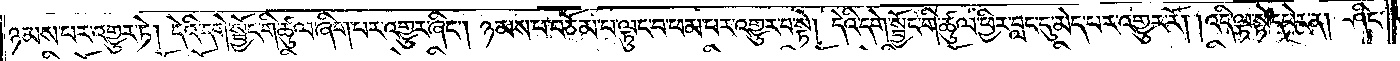ཉམས་པར་འགྱུར་ཏེ། དེའི་དགེ་སྦྱོང་གི་ཚུལ་ཞིག་པར་འགྱུར་ཞིང༌། ཉམས་པ་བཅོམ་པ་ལྟུང་བ་ཕམ་པར་འགྱུར་བ་སྟེ། དེའི་དགེ་སྦྱོང་གི་ཚུལ་ཕྱིར་བླང་དུ་མེད་པར་འགྱུར་རོ། །འདི་ལྟ་སྟེ་དཔེར་ན། ཤིང་
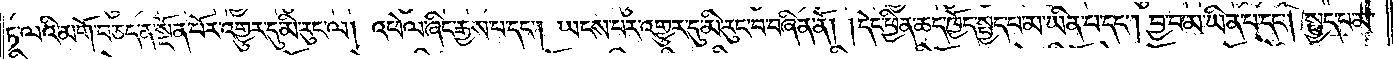ཏ་ལའི་མགོ་བཅད་ན་སྔོན་པོར་འགྱུར་དུ་མི་རུང་ལ། འཕེལ་ཞིང་རྒྱས་པ་དང༌། ཡངས་པར་འགྱུར་དུ་མི་རུང་བ་བཞིན་ནོ། །དེང་ཕྱིན་ཆད་ཁྱོད་སྤྱད་པ་མ་ཡིན་པ་དང༌། བྱ་བ་མ་ཡིན་པ་དང༌། སྤྱད་པ་མ་
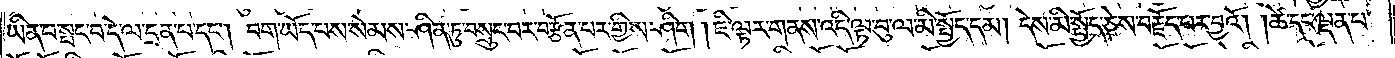ཡིན་པ་སྤང་བ་དེ་ལ་དྲན་པ་དང༌། བག་ཡོད་པས་སེམས་ཤིན་ཏུ་བསྲུང་བར་བརྩོན་པར་གྱིས་ཤིག །ཇི་ལྟར་གནས་འདི་ལྟ་བུ་ལ་མི་སྤྱོད་དམ། དེས་མི་སྤྱོད་ཅེས་བརྗོད་པར་བྱའོ། །ཚེ་དང་ལྡན་པ་
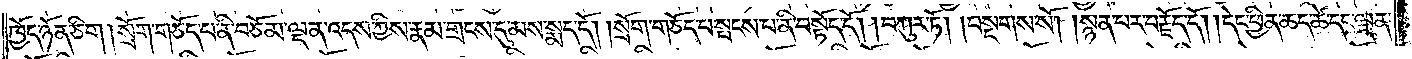ཁྱོད་ཉོན་ཅིག །སྲོག་གཅོད་པ་ནི་བཅོམ་ལྡན་འདས་ཀྱིས་རྣམ་གྲངས་དུ་མས་སྨད་དོ། །སྲོག་གཅོད་པ་སྤངས་པ་ནི་བསྟོད་དོ། །བཀུར་ཏོ། །བསྔགས་སོ། །སྙན་པར་བརྗོད་དོ། །དེང་ཕྱིན་ཆད་ཚེ་དང་ལྡན་
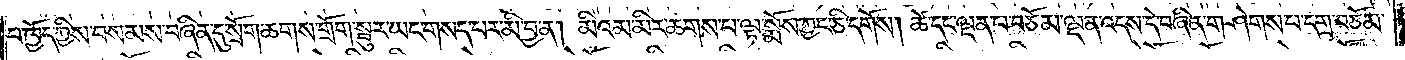པ་ཁྱོད་ཀྱིས་བསམས་བཞིན་དུ་སྲོག་ཆགས་གྲོག་སྦུར་ཡང་གསད་པར་མི་བྱ་ན། མིའམ་མིར་ཆགས་པ་ལྟ་སྨོས་ཀྱང་ཅི་དགོས། ཚེ་དང་ལྡན་པ་བཅོམ་ལྡན་འདས་དེ་བཞིན་གཤེགས་པ་དགྲ་བཅོམ་
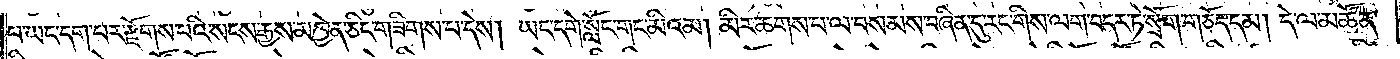པ་ཡང་དག་པར་རྫོགས་པའི་སངས་རྒྱས་མཁྱེན་ཅིང་གཟིགས་པ་དེས། ཡང་དགེ་སློང་གང་མིའམ། མིར་ཆགས་པ་ལ་བསམས་བཞིན་དུ་རང་གིས་ལག་བདར་ཏེ་སྲོག་གཅོད་དམ། དེ་ལ་མཚོན་
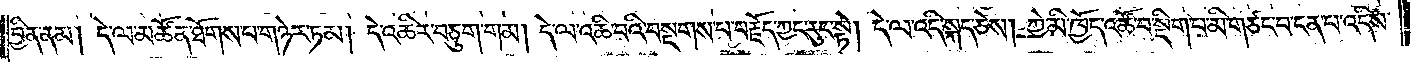བྱིན་ནམ། དེ་ལ་མཚོན་ཐོགས་པ་གཉེར་ཏམ། དེ་འཆིར་བཅུག་གམ། དེ་ལ་འཆི་བའི་བསྔགས་པ་བརྗོད་ཀྱང་རུང་སྟེ། དེ་ལ་འདི་སྐད་ཅེས། ཀྱེ་མི་ཁྱོད་འཚོ་བ་སྡིག་པ་མི་གཙང་པ་ངན་པ་འདིས
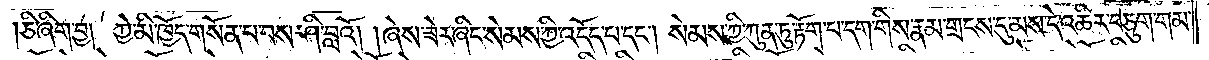ཅི་ཞིག་བྱ། ཀྱེ་མི་ཁྱོད་གསོན་པ་བས་ཤི་བླའོ། །ཞེས་ཟེར་ཞིང་སེམས་ཀྱི་འདོད་པ་དང༌། སེམས་ཀྱི་ཀུན་ཏུ་རྟོག་པ་དག་གིས་རྣམ་གྲངས་དུ་མས་དེ་འཆིར་བཅུག་གམ་
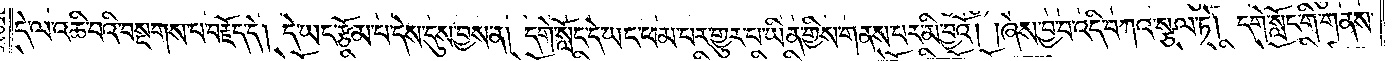དེ་ལ་འཆི་བའི་བསྔགས་པ་བརྗོད་དེ། དེ་ཡང་རྩོམ་པ་དེས་དུས་བྱས་ན། དགེ་སློང་དེ་ཡང་ཕམ་པར་གྱུར་པ་ཡིན་གྱིས་གནས་པར་མི་བྱའོ། །ཞེས་བྱ་བ་འདི་བཀའ་སྩལ་ཏེ། དགེ་སློང་གི་གནས་
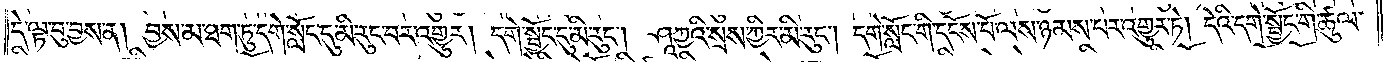དེ་ལྟ་བུ་བྱས་ན། བྱས་མ་ཐག་ཏུ་དགེ་སློང་དུ་མི་རུང་བར་འགྱུར། དགེ་སྦྱོང་དུ་མི་རུང༌། ཤཱཀྱའི་སྲས་ཀྱིར་མི་རུང༌། དགེ་སློང་གི་དངོས་པོ་ལས་ཉམས་པར་འགྱུར་ཏེ། དེའི་དགེ་སྦྱོང་གི་ཚུལ་
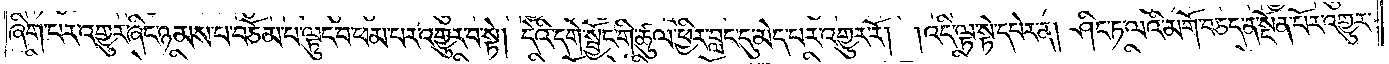ཞིག་པར་འགྱུར་ཞིང་ཉམས་པ་བཅོམ་པ་ལྟུང་བ་ཕམ་པར་འགྱུར་བ་སྟེ། དེའི་དགེ་སྦྱོང་གི་ཚུལ་ཕྱིར་བླང་དུ་མེད་པར་འགྱུར་རོ། །འདི་ལྟ་སྟེ་དཔེར་ན། ཤིང་ཏ་ལའི་མགོ་བཅད་ན་སྔོན་པོར་འགྱུར་
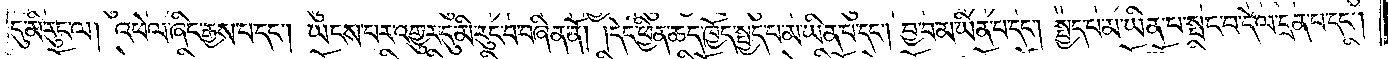དུ་མི་རུང་ལ། འཕེལ་ཞིང་རྒྱས་པ་དང༌། ཡངས་པར་འགྱུར་དུ་མི་རུང་བ་བཞིན་ནོ། །དེང་ཕྱིན་ཆད་ཁྱོད་སྤྱད་པ་མ་ཡིན་པ་དང༌། བྱ་བ་མ་ཡིན་པ་དང༌། སྤྱད་པ་མ་ཡིན་པ་སྤང་བ་དེ་ལ་དྲན་པ་དང༌།
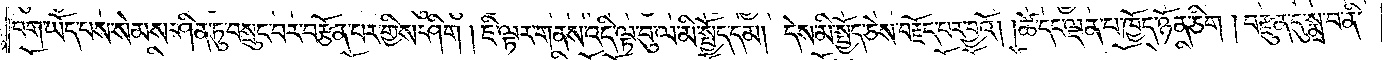བག་ཡོད་པས་སེམས་ཤིན་ཏུ་བསྲུང་བར་བརྩོན་པར་གྱིས་ཤིག །ཇི་ལྟར་གནས་འདི་ལྟ་བུ་ལ་མི་སྤྱོད་དམ། དེས་མི་སྤྱོད་ཅེས་བརྗོད་པར་བྱའོ། །ཚེ་དང་ལྡན་པ་ཁྱོད་ཉོན་ཅིག །བརྫུན་དུ་སྨྲ་བ་ནི་
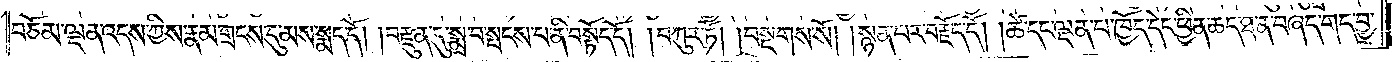བཅོམ་ལྡན་འདས་ཀྱིས་རྣམ་གྲངས་དུ་མས་སྨད་དོ། །བརྫུན་དུ་སྨྲ་བ་སྤངས་པ་ནི་བསྟོད་དོ། །བཀུར་ཏོ། །བསྔགས་སོ། །སྙན་པར་བརྗོད་དོ། །ཚེ་དང་ལྡན་པ་ཁྱོད་དེང་ཕྱིན་ཆད་ཐ་ན་བཞད་གད་བྱ་
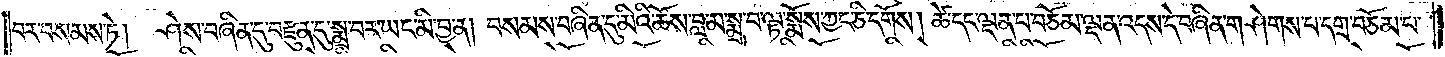བར་བསམས་ཏེ། ཤེས་བཞིན་དུ་བརྫུན་དུ་སྨྲ་བར་ཡང་མི་བྱ་ན། བསམས་བཞིན་དུ་མིའི་ཆོས་བླ་མ་སྨྲ་བ་ལྟ་སྨོས་ཀྱང་ཅི་དགོས། ཚེ་དང་ལྡན་པ་བཅོམ་ལྡན་འདས་དེ་བཞིན་གཤེགས་པ་དགྲ་བཅོམ་པ་
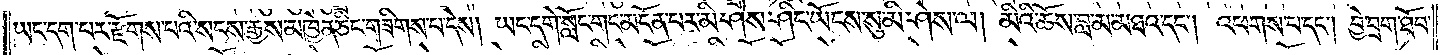ཡང་དག་པར་རྫོགས་པའི་སངས་རྒྱས་མཁྱེན་ཅིང་གཟིགས་པ་དེས། ཡང་དགེ་སློང་གང་མངོན་པར་མི་ཤེས་ཤིང་ཡོངས་སུ་མི་ཤེས་ལ། མིའི་ཆོས་བླ་མ་མཐའ་དང༌། འཕགས་པ་དང༌། བྱེ་བྲག་ཐོབ་
